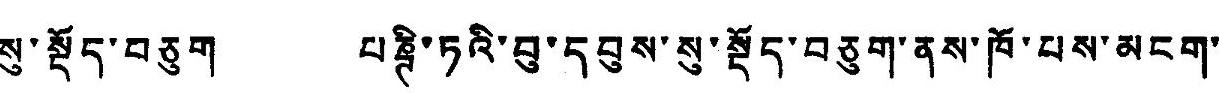སུ་སྡོད་བཅུག པཎྚི་ཏའི་བུ་དབུས་སུ་སྡོད་བཅུག་ནས་ཁོ་པས་མངག་
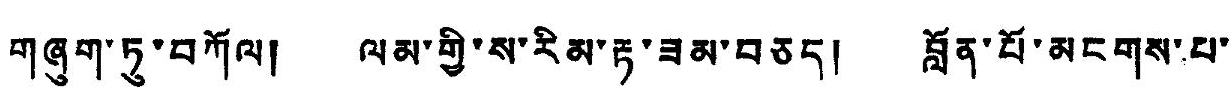གཞུག་ཏུ་བཀོལ། ལམ་གྱི་ས་རིམ་རྟ་ཟམ་བཅད། བློན་པོ་མངགས་པ་
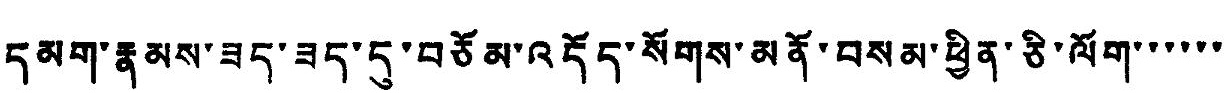དམག་རྣམས་ཟད་ཟད་དུ་བཅོམ་འདོད་སོགས་མནོ་བསམ་ཕྱིན་ཅི་ལོག་་་་་་
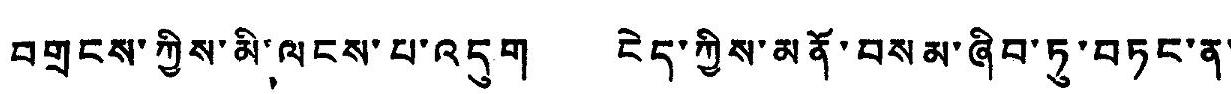བགྲངས་ཀྱིས་མི་ལངས་པ་འདུག ངེད་ཀྱིས་མནོ་བསམ་ཞིབ་ཏུ་བཏང་ན་
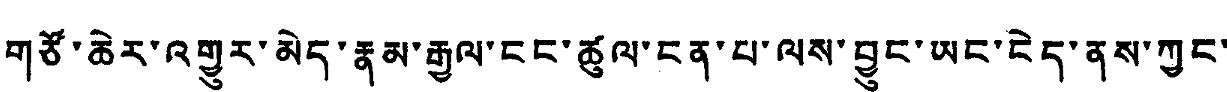གཙོ་ཆེར་འགྱུར་མེད་རྣམ་རྒྱལ་ངང་ཚུལ་ངན་པ་ལས་བྱུང་ཡང་ངེད་ནས་ཀྱང་
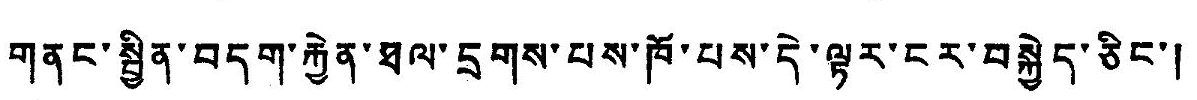གནང་སྦྱིན་བདག་རྐྱེན་ཐལ་དྲགས་པས་ཁོ་པས་དེ་ལྟར་ངར་བསྐྱེད་ཅིང་།
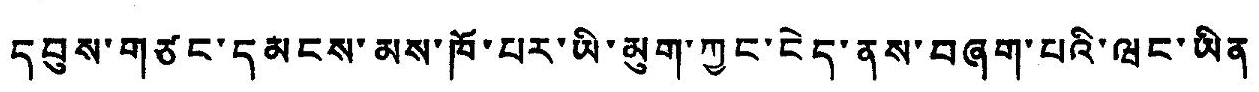དབུས་གཙང་དམངས་མས་ཁོ་པར་ཡི་མུག་ཀྱང་ངེད་ནས་བཞག་པའི་ཝང་ཡིན་
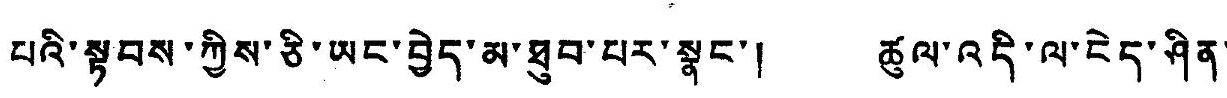པའི་སྟབས་ཀྱིས་ཅི་ཡང་བྱེད་མ་ཐུབ་པར་སྣང་། ཚུལ་འདི་ལ་ངེད་ཤིན་
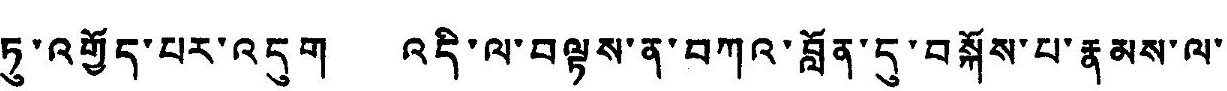ཏུ་འགྱོད་པར་འདུག་།་འདི་ལ་བལྟས་ན་བཀའ་བློན་དུ་བསྐོས་པ་རྣམས་ལ་
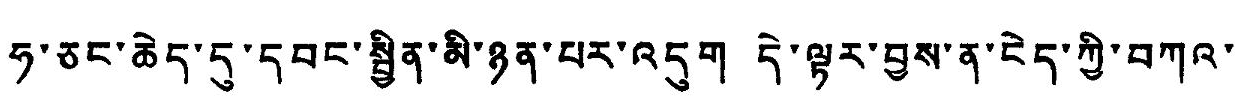ཧ་ཅང་ཆེད་དུ་དབང་སྦྱིན་མི་ཉན་པར་འདུག་དེ་ལྟར་བྱས་ན་ངེད་ཀྱི་བཀའ་
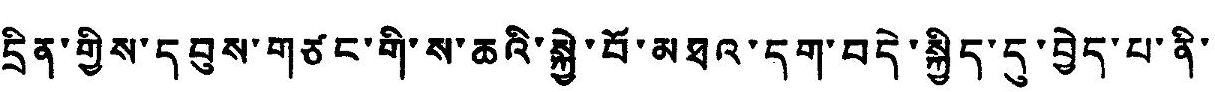དྲིན་གྱིས་དབུས་གཙང་གི་ས་ཆའི་སྐྱེ་བོ་མཐའ་དག་བདེ་སྐྱིད་དུ་བྱེད་པ་ནི་་
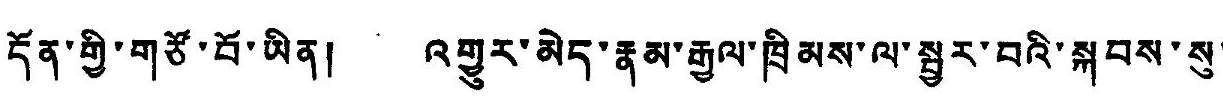དོན་གྱི་གཙོ་བོ་ཡིན། འགྱུར་མེད་རྣམ་རྒྱལ་ཁྲིམས་ལ་སྦྱར་བའི་སྐབས་སུ་
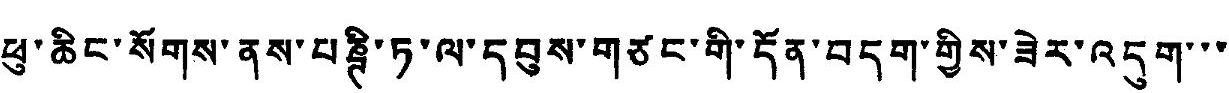ཕུ་ཆིང་སོགས་ནས་པཎྚི་ཏ་ལ་དབུས་གཙང་གི་དོན་བདག་གྱིས་ཟེར་འདུག་་་
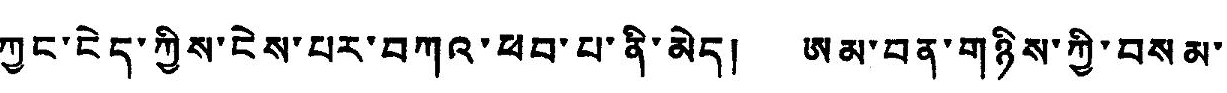ཀྱང་ངེད་ཀྱིས་ངེས་པར་བཀའ་ཕབ་པ་ནི་མེད། ཨམ་བན་གཉིས་ཀྱི་བསམ་
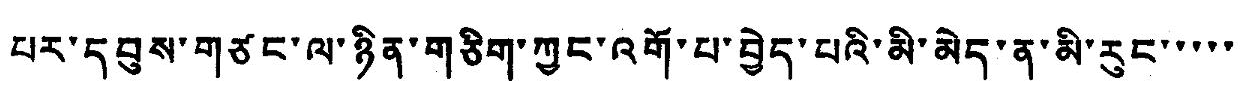པར་དབུས་གཙང་ལ་ཉིན་གཅིག་ཀྱང་འགོ་པ་བྱེད་པའི་མི་མེད་ན་མི་རུང་་་་་
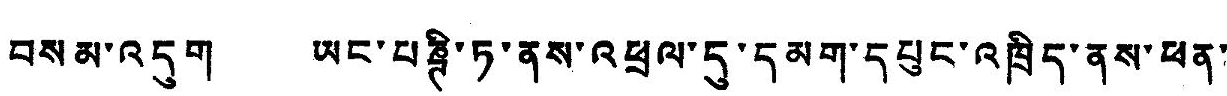བསམ་འདུག ཡང་པཎྚི་ཏ་ནས་འཕྲལ་དུ་དམག་དཔུང་འཁྲིད་ནས་ཕན་
